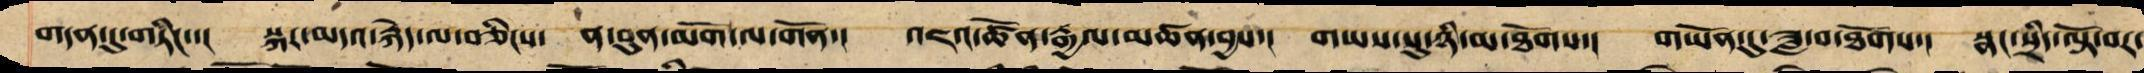གདན་དུ་བཏིང་་། སྐར་མདའ་རྐེད་ལ་བཅིངས་ ན་བུན་མགོ་ལ་གོན་། འཇའ་ཚོན་རྒྱལ་མཚན་བྱས་། གཡས་སུ་ཉི་མ་ཐོགས་། གཡོན་དུ་ཟླ་བ་ཐོགས་། སྣང་སྲིད་ལྟོ་བར་
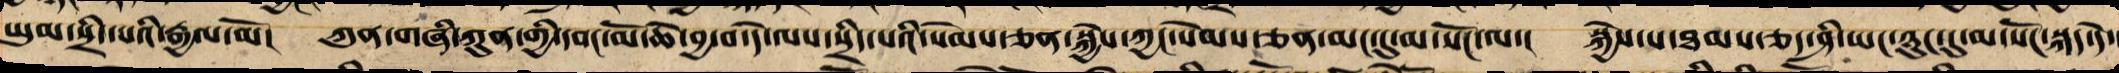ཡུམ་སྲིད་པའི་རྒྱལ་མོ་། ཀུན་གཞི་ཀུན་གྱི་དབང་མོ་ཆེ་བྱ་བ་དེ་ལས་སྲིད་པའི་སེམས་ཅན་སྐྱེས་ཀྱང་སེམས་ཅན་མང་དུ་མ་སོང་ལ་། སྐྱེས་པ་ཐམས་ཅད་ཤི་ཡང་ཉུང་དུ་མ་སོང་སྐད་དེ།་
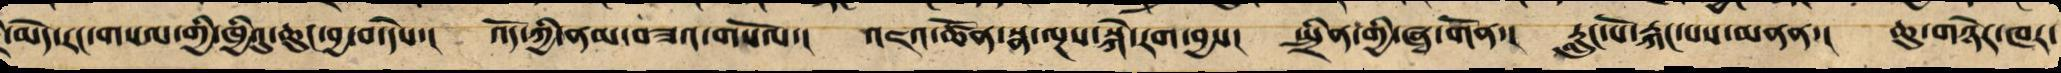དྲི་མེད་རང་གསལ་གྱི་ཁྱེའུ་ཆུང་བྱ་བ་དེས་། འོད་ཀྱི་ན་བཟའ་གསོལ་། འཇའ་ཚོན་སྣ་ལྔས་སྐ་རགས་བྱས་། སྤྲིན་གྱི་ཞྭ་གོན་། རླུང་པོ་རྐང་པས་མནན་། ཆུ་གཏེར་ཁར་
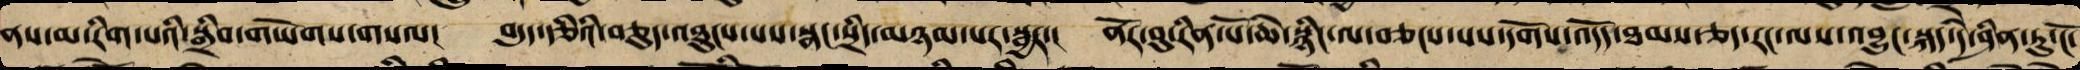ནས་མ་རིག་པའི་སྒྲིབ་གཡོགས་བསལ། བདུད་རྩིའི་བཅུད་འཐུངས་པས་སྣང་སྲིད་མཉམ་པར་སྦྱར་། ནོར་བུ་རིན་པོ་ཆེ་སྙིང་ལ་བཅངས་པས་དགོས་འདོད་ཐམས་ཅད་རང་ལས་བྱུང་སྐད་དེ་ཤིན་ཏུ་ངོ་
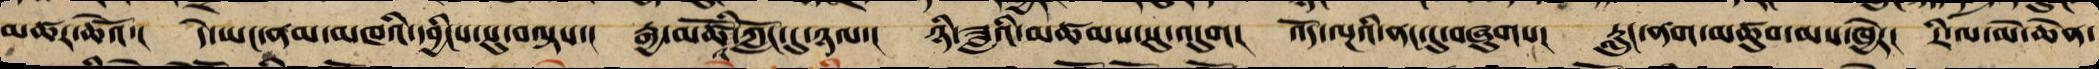མཚར་ཆེའོ་། དེ་ཡང་ནམ་མཁའི་དབྱིངས་སུ་བལྟས་། རྒྱ་མཚོའི་ཀློང་དུ་ཉལ་། ཉི་ཟླའི་མཚམས་སུ་འདུག། འོད་ལྔའི་ནང་དུ་བཞུགས། རླུང་ནག་འཚུབ་མས་ཁྱེར། རི་ལ་མེ་ཆེན་
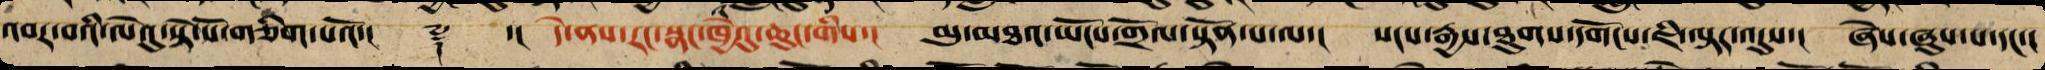འབར་བའི་ལེའུ་སྟེ་སོ་གཅིག་པའོ་།། ༈ ་།། དེ་ནས་རང་སྣང་ཁྱེའུ་ཆུང་གིས་། མུ་མཐའ་ཡོངས་གྲོལ་སྟོན་པ་ལ་། སངས་རྒྱས་ཐུགས་དགོངས་ཇི་ལྟར་འདུས་། ཞེས་ཞུས་པ་དང་།
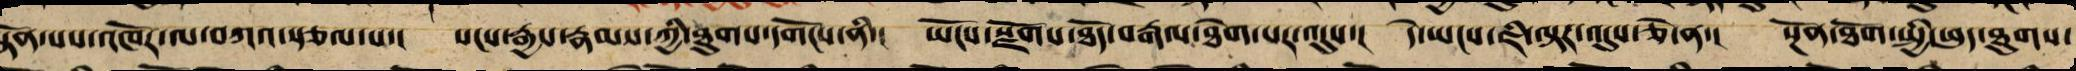སྟོན་པས་འཁོར་ལ་བཀའ་སྩལ་པ་། སངས་རྒྱས་རྣམས་ཀྱི་ཐུགས་དགོངས་ནི་། ཡོངས་སྫོགས་ཐོད་རྒལ་ཐེག་པར་འདུས་། དེ་ཡང་ཇི་ལྟར་འདུས་ཅེ་ན་། སྔོན་ཐོག་སྤྱི་ཕུད་ཐུགས་
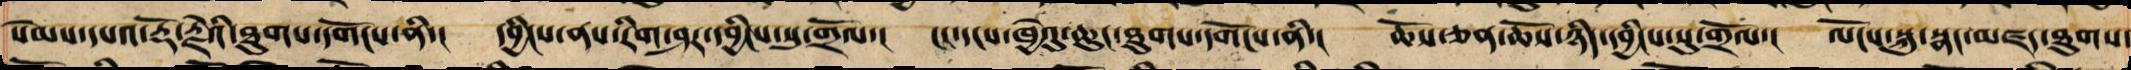སེམས་དཔའ་རྡོ་རྗེའི་ཐུགས་དགོངས་ནི་། དབྱིངས་ནས་རིག་ཤར་དབྱིངས་སུ་གྲོལ་། ངང་དངས་ཁྱེའུ་ཆུང་ཐུགས་དགོངས་ནི་། ཆོས་ཅན་ཆོས་ཉིད་དབྱིངས་སུ་གྲོལ་། ལོངས་སྐུ་སྣང་མཛད་ཐུགས་
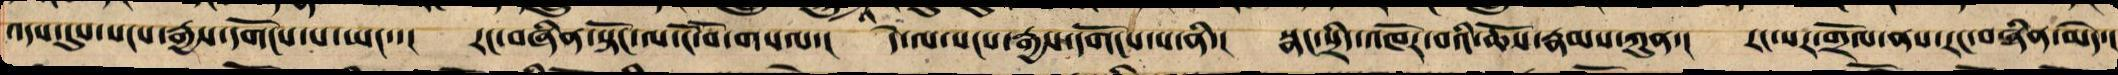འདས་དུས་སངས་རྒྱས་དགོངས་པ་ཡང་་། རང་བཞིན་སྟོང་ལ་ངོ་བོ་གསལ་། དེ་ལས་སངས་རྒྱས་དགོངས་པ་ནི་། སྣང་སྲིད་འཁོར་བའི་ཆོས་རྣམས་ཀུན་། རང་སར་གྲོལ་ནས་རང་བཞིན་མེད་།
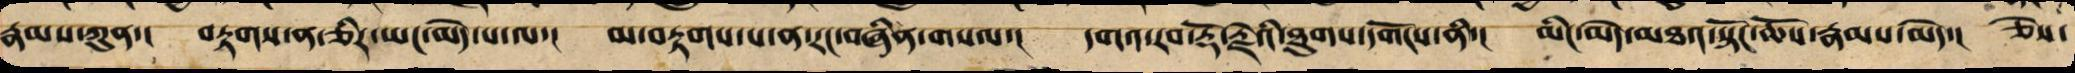རྣམས་ཀུན་། བརྟགས་ན་ཅིར་ཡང་མེད་པ་ལ་། མ་བརྟགས་པ་ན་རང་བཞིན་གསལ་། དགའ་རབ་རྡོ་རྗེའི་ཐུགས་དགོངས་ནི་། མིང་མེད་མཐའ་སྟོང་ཆོས་རྣམས་མེད་། ཅེས་
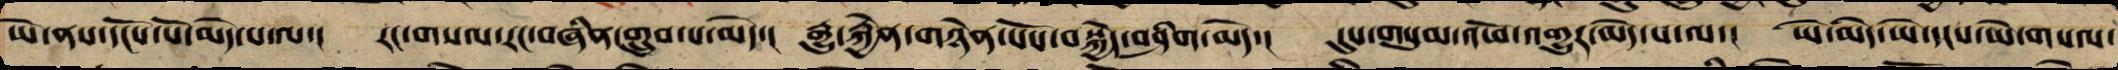ཡེ་ནས་དངོས་པོ་མེད་པ་ལ་། རང་གསལ་རང་བཞིན་གྲུབ་པ་མེད་། རྒྱུ་རྐྱེན་གཉེན་པོས་བསྐྱེད་བཤིག་མེད་། དུས་གསུམ་འཕོ་འགྱུར་མེད་པ་ལ་། ཡེ་མེད་ཡེ་དངས་ཡེ་གསལ་
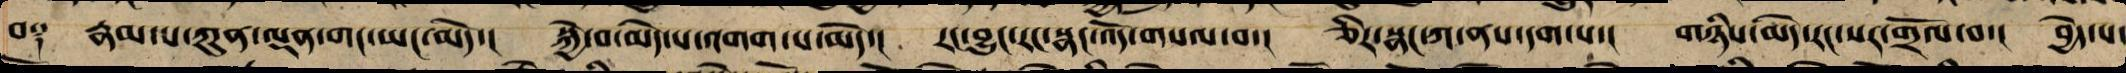བ༑ རྣམ་པ་ཀུན་ལྡན་གང་ཡང་མེད་། སྐྱེ་བ་མེད་པ་འགག་པ་མེད་། རང་བྱུང་རང་སྣང་འོད་གསལ་བ་། ཅིར་སྣང་ཀ་ནས་དག་པ་། གཉིས་མེད་རང་སར་གྲོལ་བ་། བྱེད་པ་
